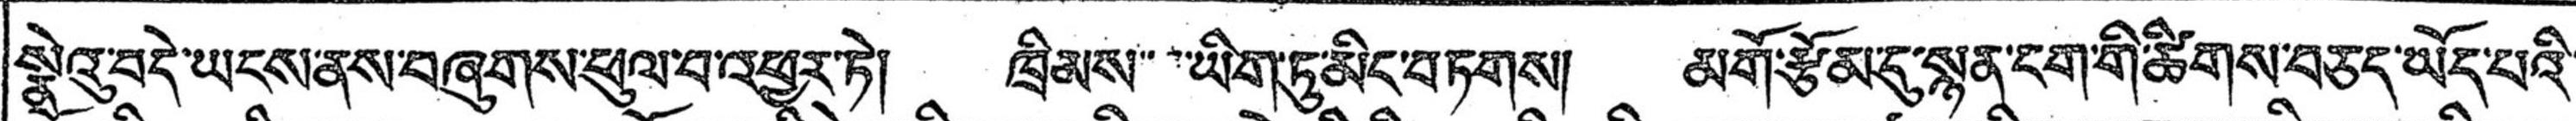སྣེའུ་བདེ་ཡངས་ནས་བཞུགས་ཕུལ་བ་འཕྱར་ཏེ། ཁྲིམས་་་ཡིག་ཏུ་མིང་བཏགས། མགོ་རྩོམ་དུ་སྙན་ངག་གི་ཚིགས་བཅད་ཡོད་པའི་
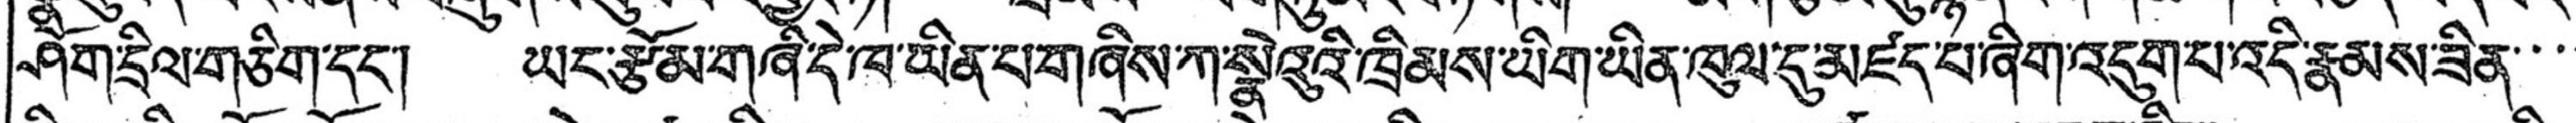ཤོག་དྲིལ་གཅིག་དང་། ཡང་རྩོམ་གཞི་དེ་ཁ་ཡིན་པ་གཞིས་ཀ་སྣེའུའི་ཁྲིམས་ཡིག་ཡིན་ཁུལ་དུ་མཛད་པ་ཞིག་འདུག་པ་འདི་རྣམས་ཟིན་་་
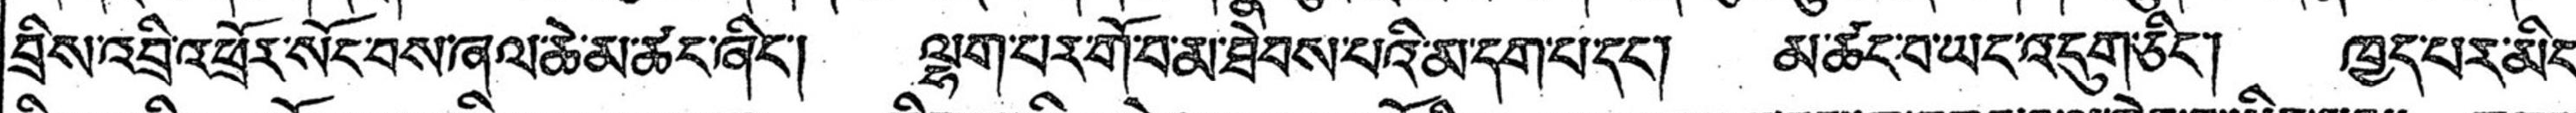བྲིས་འབྲི་འཕྲོར་སོང་བས་ཞལ་ཆེ་མ་ཚང་ཞིང་། ལྷག་པར་གོ་བ་མ་ཐེབས་པའི་མ་དག་པ་དང་། མ་ཚང་བ་ཡང་འདུག་ཅིང་། ཁྱད་པར་མིང་
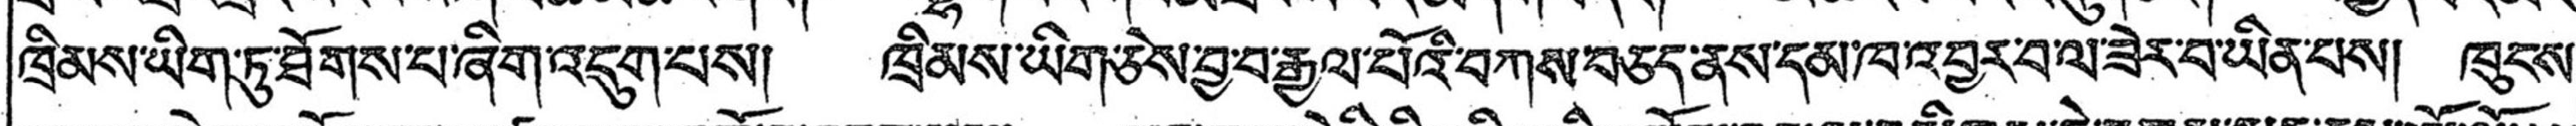ཁྲིམས་ཡིག་ཏུ་ཐོགས་པ་ཞིག་འདུག་པས། ཁྲིམས་ཡིག་ཅེས་བྱ་བ་རྒྱལ་པོའི་བཀས་བཅད་ནས་དམ་ཁ་འབྱར་བ་ལ་ཟེར་བ་ཡིན་པས། ཁུངས་
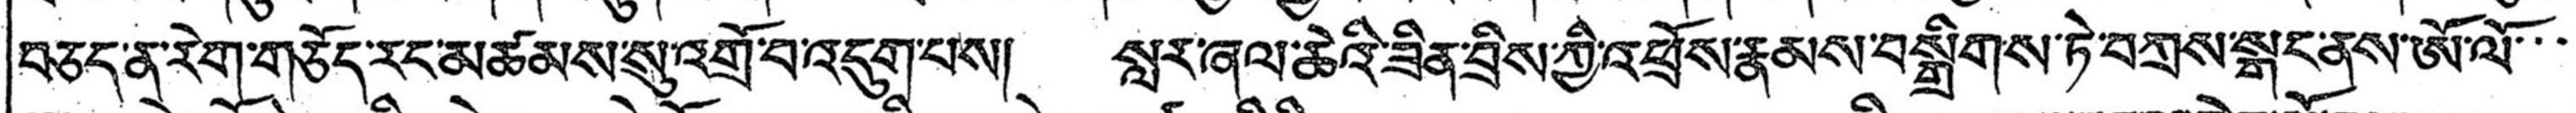བཅད་ན་རེག་གཅོད་རང་མཚམས་སུ་འགྲོ་བ་འདུག་པས། སླར་ཞལ་ཆེའི་ཟིན་བྲིས་ཀྱི་འཕྲོས་རྣམས་བསྒྲིགས་ཏེ་བཀྲས་སྒང་ནས་ཨོ་ལོ་་་
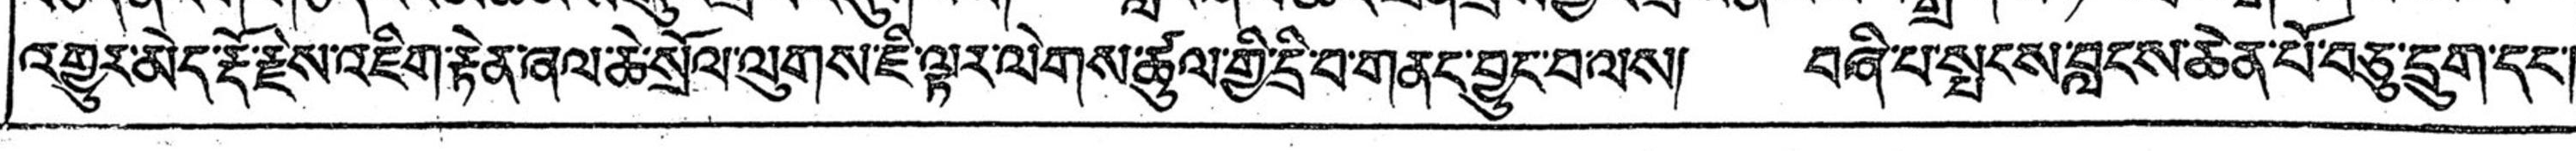འགྱུར་མེད་རྡོ་རྗེས་འཇིག་རྟེན་ཞལ་ཆེ་སྲོལ་ལུགས་ཇི་ལྟར་ལེགས་ཚུལ་གྱི་དྲི་བ་གནད་བྱུང་བ་ལས། བཞི་པ་སྤངས་བླངས་ཆེན་པོ་བཅུ་དྲུག་དང་།
